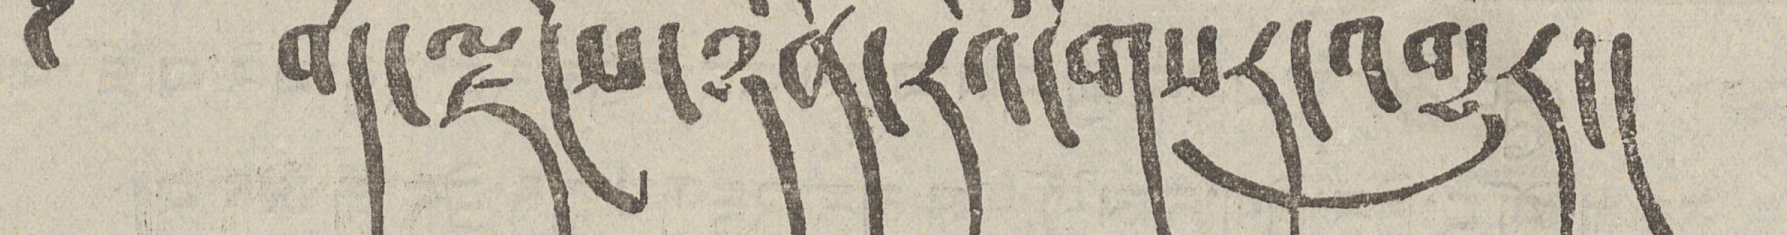༄ བོད་ལྗོངས་ཉིན་རེའི་གསར་འགྱུར།
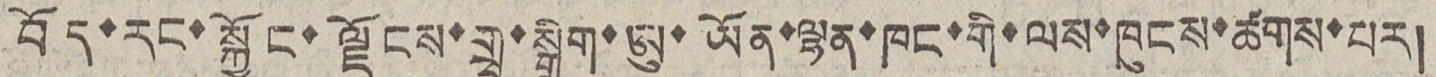བོད་རང་སྐྱོང་ལྗོངས་གྲྭ་སྒྲིག་ཨུ་ཡོན་ལྷན་ཁང་གི་ལས་ཁུངས་ཚགས་པར།
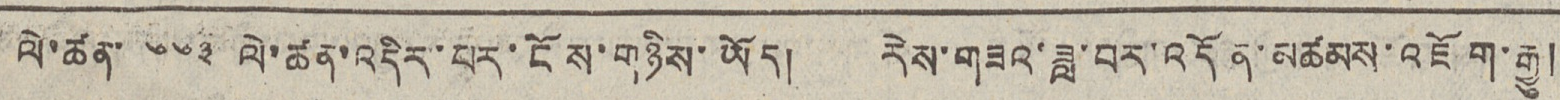ལི་ཚན་ ༦༦༣ ལེ་ཚན་འདིར་པར་ངོས་གཉིས་ཡོད། རེས་གཟའ་ཟླ་བར་འདོན་མཚམས་འཇོག་རྒྱུ།
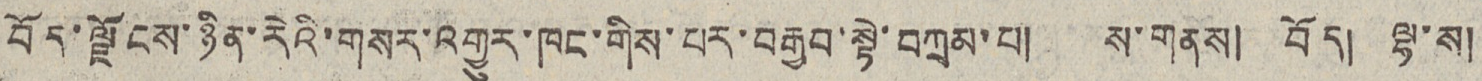བོད་ལྗོངས་ཉིན་རེའི་གསར་འགྱུར་ཁང་གིས་པར་བརྒྱབ་སྟེ་བཀྲམ་པ། ས་གནས། བོད། ལྟ་ས།
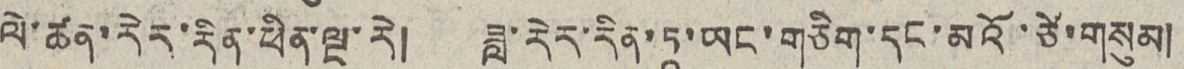ལེ་ཚན་རེར་རིན་ཕིན་ལྔ་རེ། ཟླ་རིར་རིན་ཏཱ་ཡང་གཅིག་དང་མའོ་ཙེ་གསུམ།
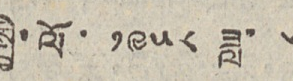སྤྱི་ལོ་ ༡༩༥༨ ཟླ་ ༦
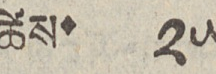ཚེས་ ༢༥
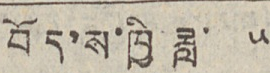བོད་ས་ཁྱི ཟླ་ ༥
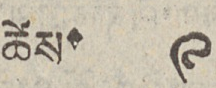ཚེས་ ༩
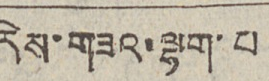རེས་གཟའ་ལྷག་པ།
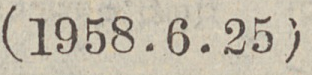(1958.6.25)
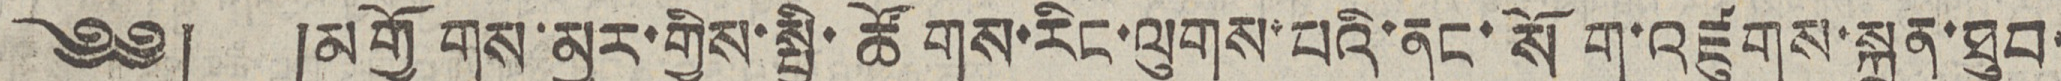༄༅། །མགྱོགས་མྱུར་གྱིས་སྤྱི་ཚོགས་རིང་ལུགས་པའི་ནང་སོག་འཛུགས་སྐྲུན་ཐུབ་
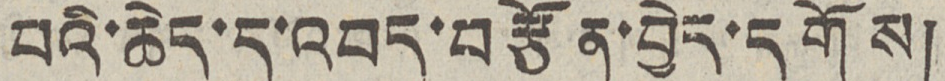པའི་ཆེད་དུ་འབད་བརྩོན་བྱེད་དགོས།
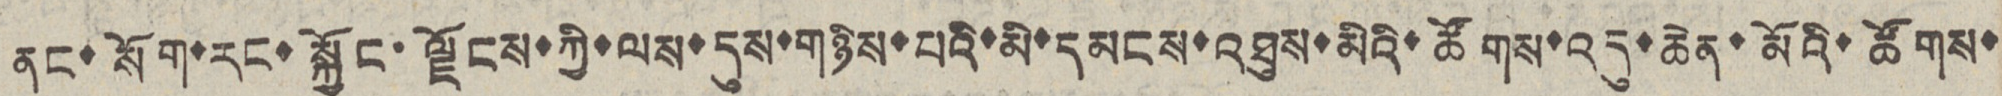ནང་སོག་རང་སྐྱོང་ལྗོངས་ཀྱི་ལས་དུས་གཉིས་པའི་མི་དམངས་འཐུས་མིའི་ཚོགས་འདུ་ཆེན་མོའི་ཚོགས་
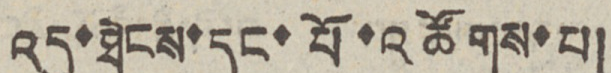འདུ་ཐེངས་དང་པོ་འཚོགས་པ།
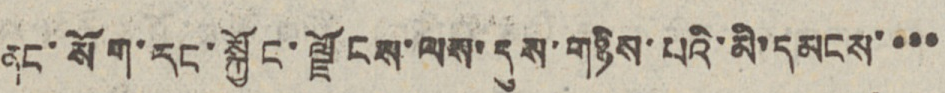ནང་སོག་རང་སྐྱོང་ལྗོངས་ལས་དུས་གཉིས་པའི་མི་དམངས་་་་
